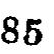85
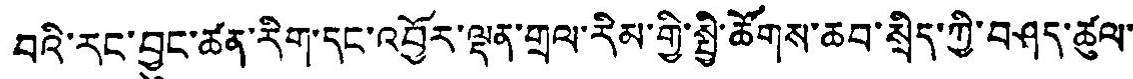བའི་རང་བྱུང་ཚན་རིག་དང་འབྱོར་ལྡན་གྲལ་རིམ་གྱི་སྤྱི་ཚོགས་ཆབ་སྲིད་ཀྱི་བཤད་ཚུལ་
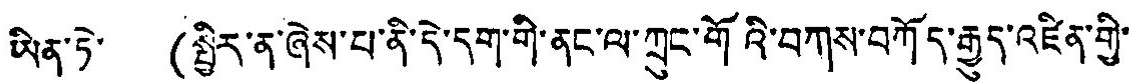ཡིན་ཏེ་ (སྤྱིར་ན་ཞེས་པ་ནི་དེ་དག་གེ་ནང་ལ་ཀྲུང་གོའི་བཀས་བཀོད་རྒྱུད་འཛིན་གྱི་
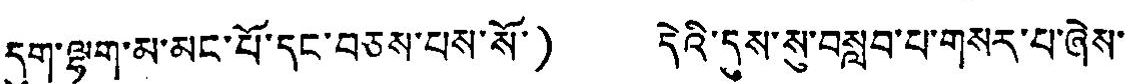དུག་ལྷག་མ་མང་པོ་དང་བཅས་པས་སོ་) དེའི་དུས་སུ་བསླབ་པ་གསར་པ་ཞེས་
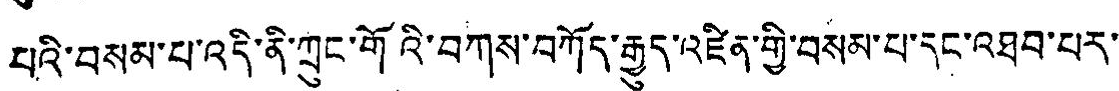པའི་བསམ་པ་འདི་ནི་ཀྲུང་གོའི་བཀས་བཀོད་རྒྱུད་འཛིན་གྱི་བསམ་པ་དང་འཐབ་པར་་
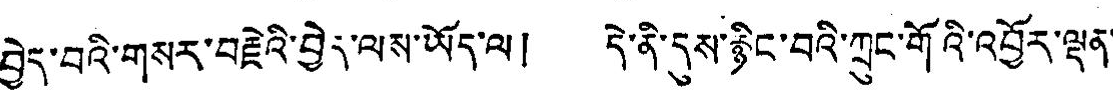བྱེད་བའི་གསར་བརྗེའི་བྱེད་ལས་ཡོད་ལ། དེ་ནི་དུས་རྙིང་བའི་ཀྲུང་གོའི་འབྱོར་ལྡན་
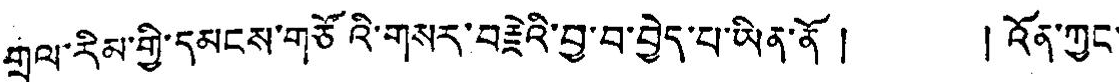གྲལ་རིམ་གྱི་དམངས་གཙོའི་གསར་བརྗེའི་བྱ་བ་བྱེད་པ་ཡིན་ནོ། ། འོན་ཀྱང་
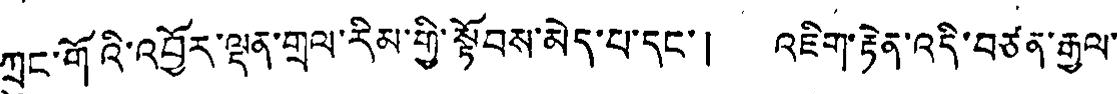ཀྲུང་གོའི་འབྱོར་ལྡན་གྲལ་རིམ་གྱི་སྟོབས་མེད་པ་དང་། འཇིག་རྟེན་འདི་བཙན་རྒྱལ་
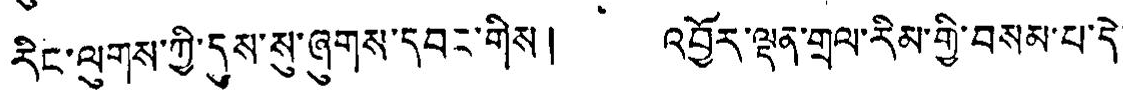རིང་ལུགས་ཀྱི་དུས་སུ་ཞུགས་དབང་གིས། འབྱོར་ལྡན་གྲལ་རིམ་གྱི་བསམ་པ་དེ་
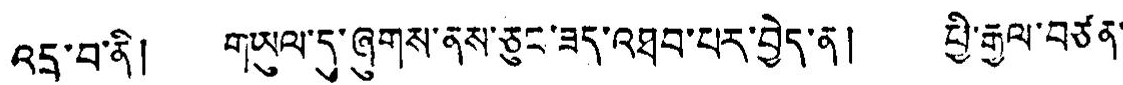འདྲ་བ་ནི། གཡུལ་དུ་ཞུགས་ནས་ཅུང་ཟད་འཐབ་པར་བྱེད་ན། ཕྱི་རྒྱལ་བཙན་
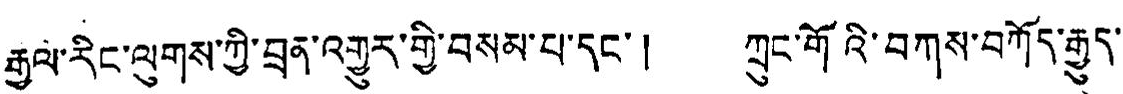རྒྱལ་རིང་ལུགས་ཀྱི་བྲན་འགྱུར་གྱི་བསམ་པ་དང་། ཀྲུང་གོའི་བཀས་བཀོད་རྒྱུད་
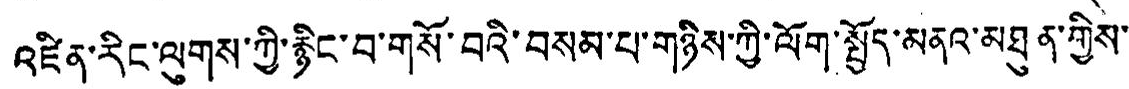འཛིན་རིང་ལུགས་ཀྱི་རྙིང་བ་གསོ་བའི་བསམ་པ་གཉིས་ཀྱི་ལོག་སྤྱོད་མནའ་མཐུན་གྱིས་
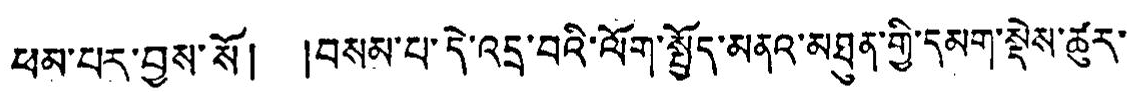ཕམ་པར་བྱས་སོ། །བསམ་པ་དེ་འདྲ་བའི་ལོག་སྤྱོད་མནའ་མཐུན་གྱི་དམག་སྡེས་ཚུར་
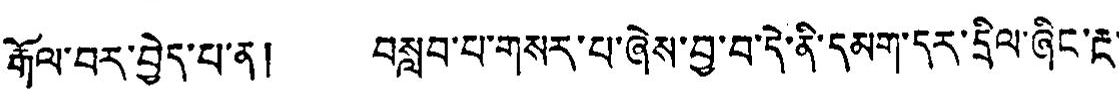རྒོལ་བར་བྱེད་པ་ན། བསླབ་པ་གསར་པ་ཞེས་བྱ་བ་དེ་ནི་དམག་དར་དྲིལ་ཞིང་རྔ་
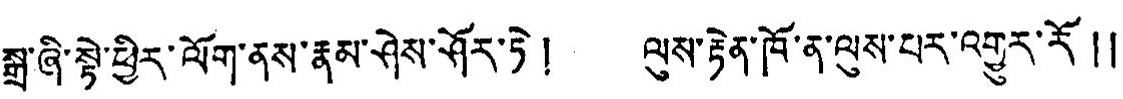སྒྲ་ཞི་སྟེ་ཕྱིར་ལོག་ནས་རྣམ་ཤེས་ཤོར་ཏེ། ལུས་རྟེན་ཁོ་ན་ལུས་པར་འགྱུར་རོ །།
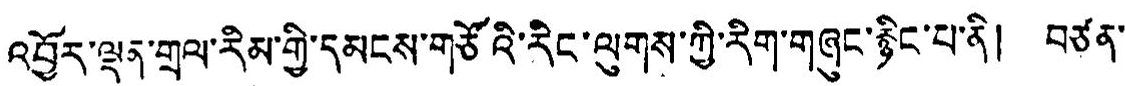འབྱོར་ལྡན་གྲལ་རིམ་གྱི་དམངས་གཙོའི་རིང་ལུགས་ཀྱི་རིག་གཞུང་རྙིང་པ་ནི། བཙན་
